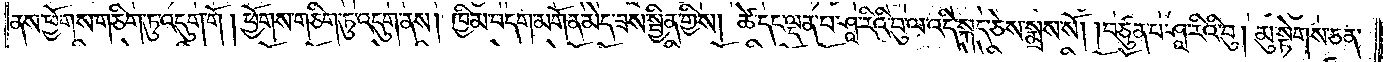ནས་ཕྱོགས་གཅིག་ཏུ་འདུག་གོ །ཕྱོགས་གཅིག་ཏུ་འདུག་ནས། ཁྱིམ་བདག་མགོན་མེད་ཟས་སྦྱིན་གྱིས། ཚེ་དང་ལྡན་པ་ཤཱ་རིའི་བུ་ལ་འདི་སྐད་ཅེས་སྨྲས་སོ། །བཙུན་པ་ཤཱ་རིའི་བུ། མུ་སྟེགས་ཅན་
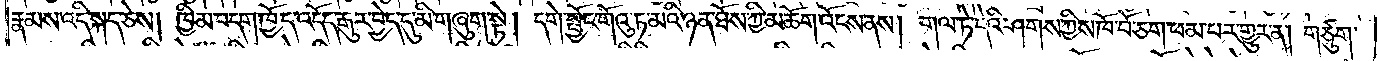རྣམས་འདི་སྐད་ཅེས། ཁྱིམ་བདག་ཁྱོད་འདོད་རྒུར་བྱེད་དུ་མི་གཞུག་སྟེ། དགེ་སྦྱོང་གོའུ་ཏ་མའི་ཉན་ཐོས་ཀྱི་མཆོག་འོངས་ནས། གལ་ཏེ་དེའི་ཤགས་ཀྱིས་ཁོ་བོ་ཅག་ཕམ་པར་གྱུར་ན། གཙུག་
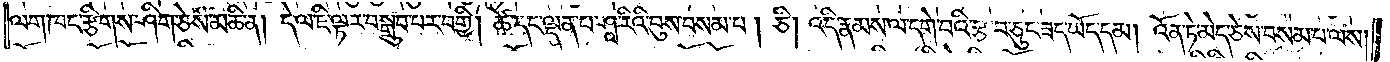ལག་ཁང་རྩིགས་ཤིག་ཅེས་མཆི་ན། དེ་ལ་ཇི་ལྟར་བསྒྲུབ་པར་བགྱི། ཚེ་དང་ལྡན་པ་ཤཱ་རིའི་བུས་བསམ་པ། ཅི། འདི་རྣམས་ལ་དགེ་བའི་རྩ་བ་ཅུང་ཟད་ཡོད་དམ། འོན་ཏེ་མེད་ཅེས་བསམ་པ་ལས།
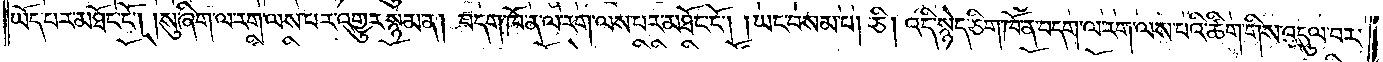ཡོད་པར་མཐོང་ངོ༌། །སུ་ཞིག་ལ་རག་ལས་པར་འགྱུར་སྙམ་ན། བདག་ཁོ་ན་ལ་རག་ལས་པར་མཐོང་ངོ༌། །ཡང་བསམ་པ། ཅི། འདི་སྙེད་ཅིག་ཁོ་ན་བདག་ལ་རག་ལས་པའི་ཚིག་གིས་འདུལ་བར་
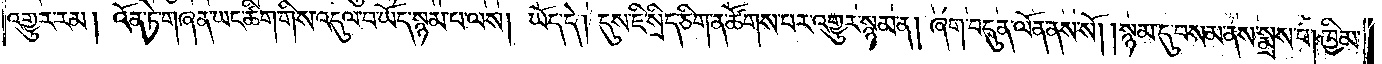འགྱུར་རམ། འོན་ཏེ་གཞན་ཡང་ཚིག་གིས་འདུལ་བ་ཡོད་སྙམ་པ་ལས། ཡོད་དེ། དུས་ཇི་སྲིད་ཅིག་ན་ཚོགས་པར་འགྱུར་སྙམ་ན། ཞག་བདུན་ལོན་ནས་སོ། །སྙམ་དུ་བསམ་ནས་སྨྲས་པ། ཁྱིམ་
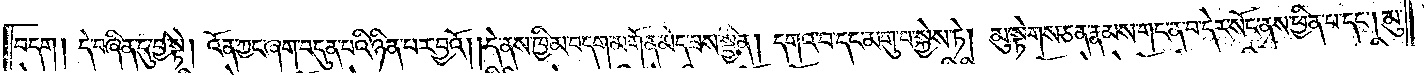བདག། དེ་བཞིན་དུ་བྱ་སྟེ། འོན་ཀྱང་ཞག་བདུན་པའི་ཉིན་པར་བྱའི། །དེ་ནས་ཁྱིམ་བདག་མགོན་མེད་ཟས་སྦྱིན། དགའ་བ་དང་མགུ་བ་སྐྱེས་ཏེ། མུ་སྟེགས་ཅན་རྣམས་གང་ན་བ་དེར་སོང་ནས་ཕྱིན་པ་དང༌། མུ་
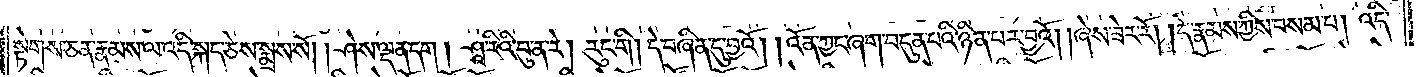སྟེགས་ཅན་རྣམས་ལ་འདི་སྐད་ཅེས་སྨྲས་སོ། །ཤེས་ལྡན་དག། ཤཱ་རིའི་བུ་ན་རེ། རུང་གི། དེ་བཞིན་དུ་བྱའོ། །འོན་ཀྱང་ཞག་བདུན་པའི་ཉིན་པར་བྱའོ། །ཞེས་ཟེར་རོ། །དེ་རྣམས་བསམ་པ། འདི་
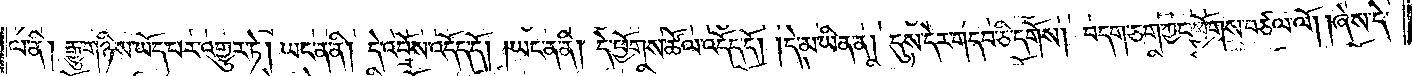ལ་ནི། རྒྱུ་གཉིས་ཡོད་པར་འགྱུར་ཏེ། ཡང་ན་ནི། དེ་འབྲོས་འདོད་དོ། །ཡང་ན་ནི། དེ་ཕྱོགས་ཚོལ་འདོད་དོ། །དེ་མ་ཡིན་ན། དུས་དེར་གདབ་ཅི་དགོས། བདག་ཅག་ཀྱང་ཕྱོགས་བཙལ་ལོ། །ཞེས་དེ་
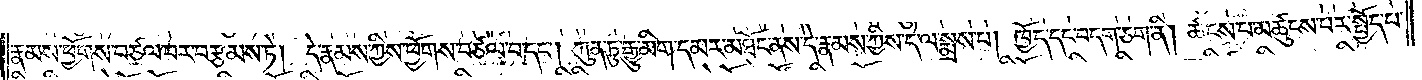རྣམས་ཕྱོགས་བཙལ་བར་བརྩམས་ཏེ། དེ་རྣམས་ཀྱིས་ཕྱོགས་བཙལ་བ་དང༌། ཀུན་ཏུ་རྒྱུ་མིག་དམར་མཐོང་ནས་དེ་རྣམས་ཀྱི་དེ་ལ་སྨྲས་པ། ཁྱོད་དང་བདག་ཅག་ནི། ཚངས་པ་མཚུངས་པར་སྤྱོད་པ་
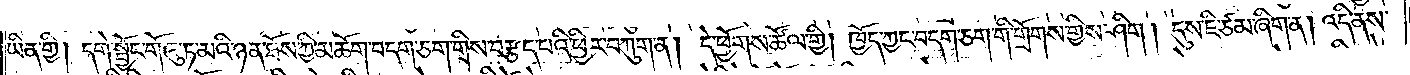ཡིན་གྱི། དགེ་སྦྱོང་གོའུ་ཏ་མའི་ཉན་ཐོས་ཀྱི་མཆོག་བདག་ཅག་གི་བརྩད་པའི་ཕྱིར་བཀུག་ན། དེ་ཕྱོགས་ཚོལ་གྱི། ཁྱོད་ཀྱང་བདག་ཅག་གི་གྲོགས་གྱིས་ཤིག །དུས་ཇི་ཙམ་ཞིག་ན། འདི་ནས་
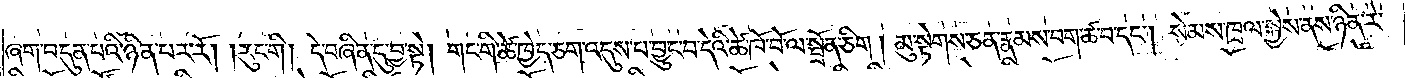ཞག་བདུན་པའི་ཉིན་པར་རོ། །རུང་གི། །དེ་བཞིན་དུ་བྱ་སྟེ། གང་གི་ཚེ་ཁྱེད་ཅག་འདུས་པ་བྱུང་བ་དེའི་ཚེ་ཁོ་བོ་ལ་སྦྲོན་ཅིག །མུ་སྟེགས་ཅན་རྣམས་བག་ཚ་བ་དང༌། སེམས་ཁྲལ་སྐྱེས་ནས་ཉིན་རེ་
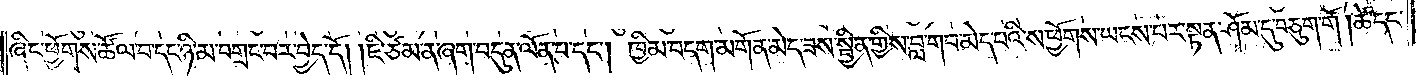ཞིང་ཕྱོགས་ཚོལ་བ་དང་ཉི་མ་བགྲང་བར་བྱེད་དོ། །ཇི་ཙམ་ན་ཞག་བདུན་ལོན་པ་དང༌། ཁྱིམ་བདག་མགོན་མེད་ཟས་སྦྱིན་གྱིས་བླ་གབ་མེད་པའི་ས་ཕྱོགས་ཡངས་པར་སྟན་ཤོམ་དུ་བཅུག་གོ། ཚེ་དང་
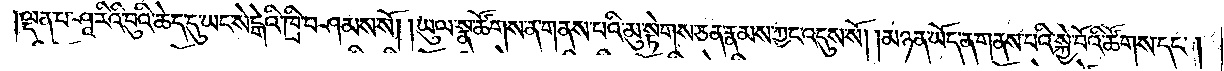།ལྡན་པ་ཤཱ་རིའི་བུའི་ཆེད་དུ་ཡང་སེངྒེའི་ཁྲི་བཤམས་སོ། །ཡུལ་སྣ་ཚོགས་ན་གནས་པའི་མུ་སྟེགས་ཅན་རྣམས་ཀྱང་འདུས་སོ། །མཉན་ཡོད་ན་གནས་པའི་སྐྱེ་བོའི་ཚོགས་དང༌།
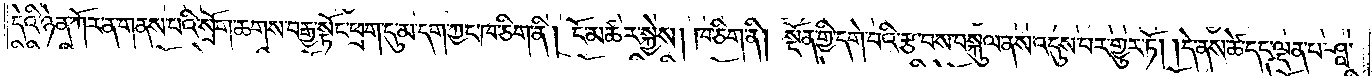དེའི་ཉེན་ཀོར་ན་གནས་པའི་སྲོག་ཆགས་བརྒྱ་སྟོང་ཕྲག་དུ་མ་དག་ཀྱང་ཁ་ཅིག་ནི། ངོ་མཚར་སྐྱེས། ཁ་ཅིག་ནི། སྔོན་གྱི་དགེ་བའི་རྩ་བས་བསྐུལ་ནས་འདུས་པར་གྱུར་ཏོ། །དེ་ནས་ཚེ་དང་ལྡན་པ་ཤཱ་
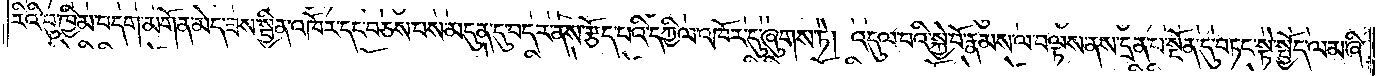རིའི་བུ་ཁྱིམ་བདག་མགོན་མེད་ཟས་སྦྱིན་འཁོར་དང་བཅས་པས་མདུན་དུ་བདར་ནས་རྩོད་པའི་དཀྱིལ་འཁོར་དུ་ཞུགས་ཏེ། འདུལ་བའི་སྐྱེ་བོ་རྣམས་ལ་བལྟས་ནས་དྲན་པ་སྔོན་དུ་བཏང་སྟེ་སྤྱོད་ལམ་ཞི་
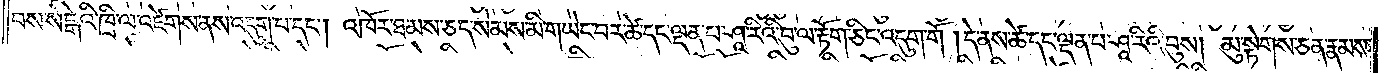བས་སེངྒེའི་ཁྲི་ལ་འཛེགས་ནས་འདུག་པ་དང༌། འཁོར་ཐམས་ཅད་སེམས་མི་གཡེང་བར་ཚེ་དང་ལྡན་པ་ཤཱ་རིའི་བུ་ལ་རྟོག་ཅིང་འདུག་གོ །དེ་ནས་ཚེ་དང་ལྡན་པ་ཤཱ་རིའི་བུས། མུ་སྟེགས་ཅན་རྣམས་
